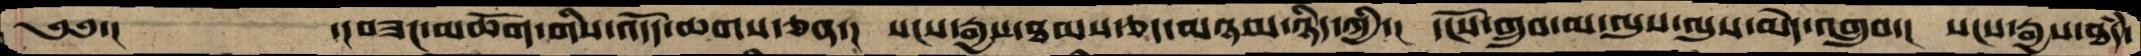༄༅་།            ་།བཟང་མཆོག་གིས་འདོད་ཆགས་ཅན་།   སངས་རྒྱས་ཐམས་ཅད་མཉམ་ཉིད་ཀྱི་།  དངོས་གྲུབ་མ་ལུས་ལུས་མེད་འགྲུབ་།  སངས་རྒྱས་ཐཾད་
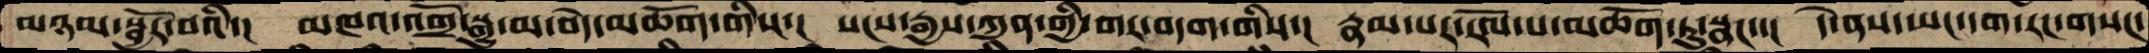མཉམ་སྦྱོར་བའི་།  མཁའ་འགྲོ་སྒྱུ་མ་བདེ་མཆོག་གིས་།  སངས་རྒྱས་ཀུན་གྱི་གར་བདག་གིས་།  རྣམ་པར་རོལ་པ་མཆོག་ཏུ་སྣང་་།  དེ་ནས་ཡང་དག་རང་གསང་
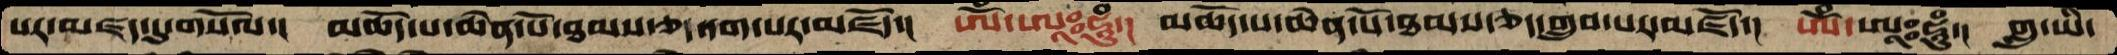པར་མཛད་དུ་གསོལ་།  མཆོད་པ་ཆེན་པོ་ཐམས་ཅད་དག་པར་མཛོད་།   ཨོཾ་ཨཱཿཧཱུཾ་།  མཆོད་པ་ཆེན་པོ་ཐམས་ཅད་གྲུབ་པར་མཛོད་།  ཨོཾ་ཨཱཿཧཱུཾ་།  གླུ་ཡི་
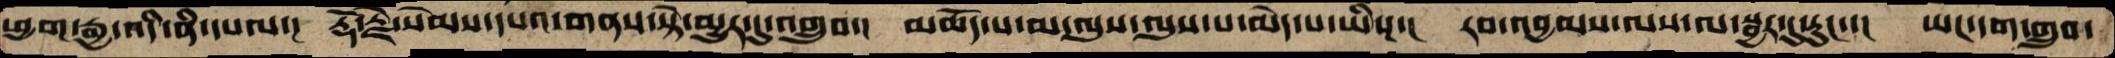ཕྱག་རྒྱ་འདི་ནི་དཔལ་།  རྡོ་རྗེ་སེམས་དཔའ་གནས་སྟེ་མྱུར་དུ་འགྲུབ་།   མཆོད་པ་མ་ལུས་ལུས་པ་མེད་པ་ཡིས་།  རབ་འབྱམས་ལས་ལ་སྦྱར་དུ་རུང་་།  ཡང་དག་གྲུབ་
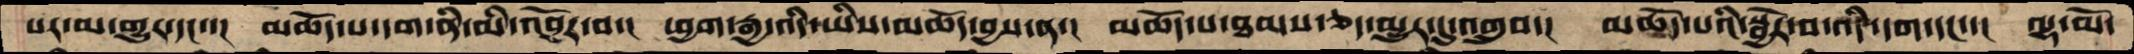པར་མ་གྱུར་དང་་།  མཆོད་པ་དག་ནི་མི་འབྱོར་བ་།  ཕྱག་རྒྱ་འདི་ཡིས་མཆོད་བྱས་ན་།  མཆོད་པ་ཐམས་ཅད་མྱུར་དུ་འགྲུབ་།  མཆོད་པའི་སྦྱོར་བ་འདི་དག་དང་་།  ལྷ་མོ་
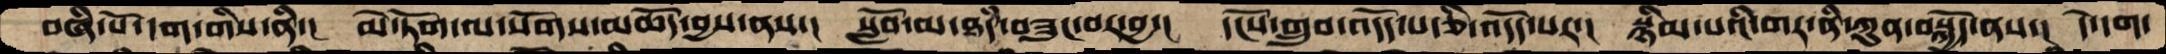བཞི་པོ་དག་གིས་ནི་།  མེ་ཏོག་ལ་སོགས་མཆོད་བྱས་ནས་།  སློབ་མ་ཐཾད་བཟུང་བར་བྱ་།  དངོས་གྲུབ་འདོད་པ་ཅི་འདོད་པར་།  སྙིམ་པའི་གར་ནི་ཀུན་བསྐྱོད་ནས་།  དེ་དག་
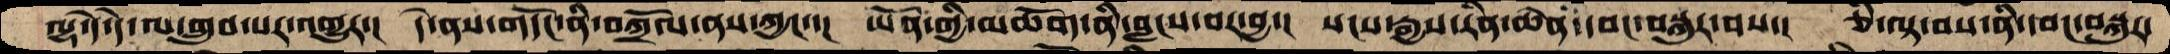ལྷ་དེ་དེ་ལ་གྲུབ་པར་འགྱུར་།  དེ་ནས་གདོང་ནི་བཀྲོལ་ནས་ཀྱང་་།  ཡོན་གྱི་མཆོག་ནི་བླངས་བར་བྱ་།  སངས་རྒྱས་རིན་ཆེན་དབང་བསྐུར་བས་།  ཅི་ལྟ་བས་ནི་དབང་བསྐུར་
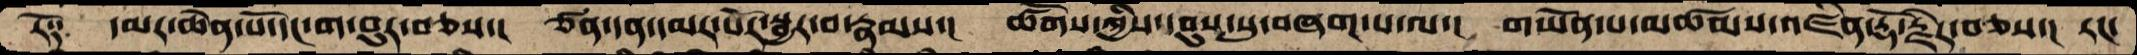རོ༑   དམར་ཆེན་པོ་དང་ག་བུར་བཅས་།  ཙན་དན་དམར་པོར་སྦྱར་བ་རྣམས་།  ཚོགས་ཀྱིས་དབུས་སུ་བཞག་པ་ལ་།  གཡོན་པ་མཚམས་འཛིན་རྡོ་རྗེར་བཅས་།  རང་
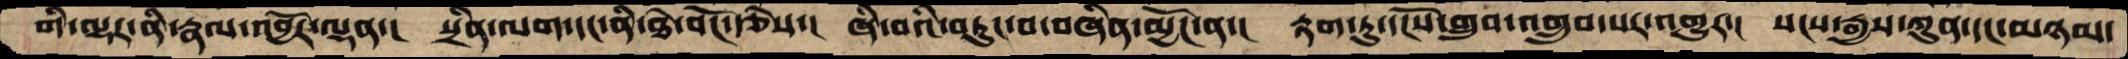གི་ལྷར་ནི་རྣལ་འབྱོར་ལྡན་།  སྲིན་ལག་དང་ནི་ཐེ་བོང་རྩེས་།  ཞི་བའི་བཏུང་བ་བཞིན་མྱོང་ན་།  རྟག་ཏུ་དངོས་གྲུབ་འགྲུབ་པར་འགྱུར་།  སངས་རྒྱས་ཀུན་དང་མཉམ་
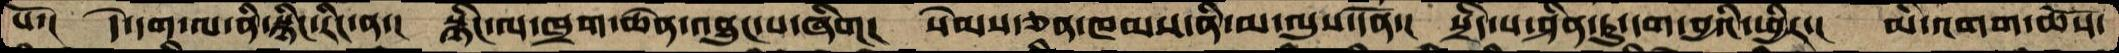པོ་།   དེ་དག་ལ་ནི་སྙིང་རིང་ན་།  སྙིང་ལ་ཁྲག་ཆེན་འབྱུང་པ་ཞིག།  སེམས་ཅན་ཁམས་ནི་མ་ལུས་དོན་།  སྲིད་པ་ཤིན་ཏུ་དག་བྱའི་ཕྱིར་།  མི་འགག་ཆོས་
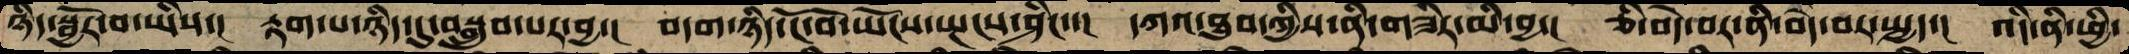ཉིད་སྦྱོར་བ་ཡིས་།  རྟག་པ་ཉིད་དུ་བསྒྲུབ་པར་བྱ་།  བདག་ཉིད་ངོ་བོ་ཡོངས་སྤངས་ཤིང་་།  དཀའ་ཐུབ་ཀྱིས་ནི་གཟིར་མི་བྱ་།  ཅི་བདེ་བར་ནི་བདེ་བར་སྤྱད་།  འདི་ནི་ཕྱི་
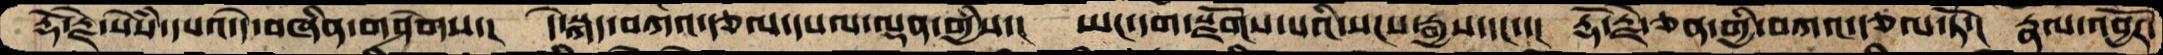རྡོ་རྗེ་སེཾས་དཔའ་དེ་བཞིན་གཤེགས་།  དེ་སྐད་བཀའ་རྩལ་དཔལ་ལྡན་གྱིས་།  ཡང་དག་སྫོགས་པའི་སངས་རྒྱས་དང་་།  རྡོ་རྗེ་ཅན་གྱི་བཀའ་རྩལ་ཏོ་།  རྣལ་འབྱོར་
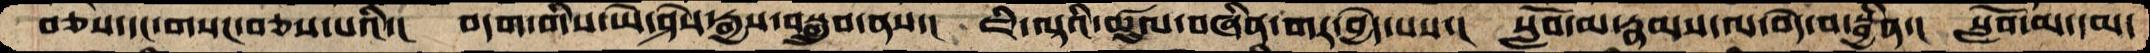བཅས་དང་གསང་བཅས་པའི་།  བདག་གིས་ཡེ་ཤེས་རྒྱས་བསྒྲུབ་ནས་།  ཇི་ལྟའི་ཚུལ་བཞིན་གར་བྱེད་པས་།  སློབ་མ་རྣམས་ལ་བདེ་བ་སྦྱིན་།  སློབ་མ་དམ་
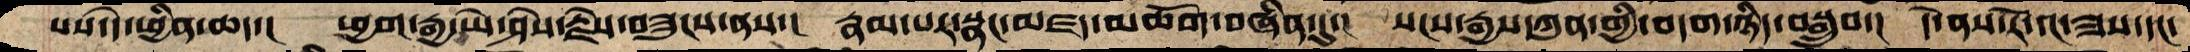པས་དེ་ཕྱིན་ཆད་།  ཕྱག་རྒྱ་ཡེ་ཤེས་རྗེས་བཟུངས་ནས་།  རྣམ་པར་སྣང་མཛད་མཆོག་བཞིན་དུ་།  སངས་རྒྱས་ཀུན་གྱི་བདག་ཉིད་བསྒྲུབ་།  དེ་ནས་རོ་དང་ཟས་དང་
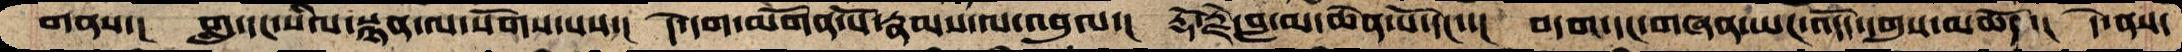གནས་།   གླུ་དང་སིལ་སྙན་ལ་སོགས་པས་།  དེ་དག་མགོན་པོ་རྣམས་ལ་འབུལ་།  རྡོ་རྗེ་བླ་མ་ཆེན་པོ་དང་་།  བདག་དང་གཞན་ཡང་འདོད་དགུས་མཆོད་།  དེ་ནས་
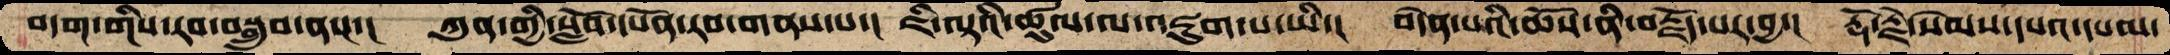བདག་གིས་རབ་བསྒྲུབ་ནས་།  ཀུན་གྱི་སློབ་དཔོན་རབ་གནས་པ་།  ཇི་ལྟའི་ཚུལ་ལ་འཇུག་པ་ཡི་།  བདེན་པའི་ཆོས་ནི་བརྗོད་པར་བྱ་།  རྡོ་རྗེ་སེམས་དཔའ་དཔལ་
